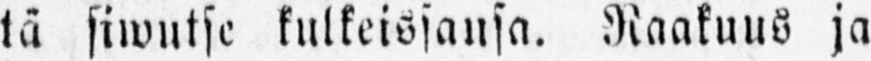tä siwutse kulkeissansa. Raakuus ja
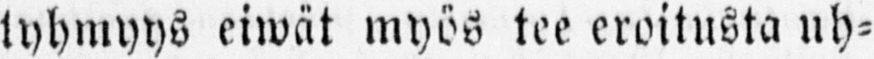tyhmyys eiwät myös tee eroitusta uh-
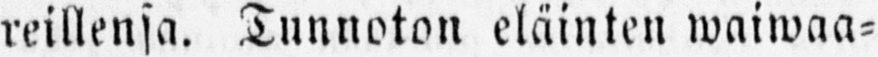reillensa. Tunnoton eläinten waiwaa-
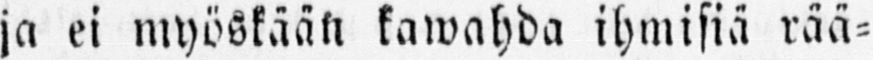ja ei myöskään kawahda ihmisiä rää-
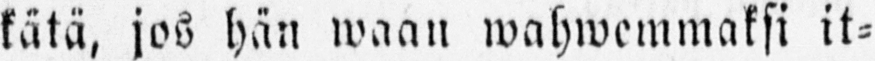kätä, jos hän waan wahwemmaksi it-
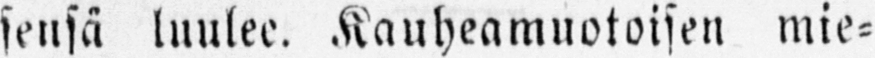sensä luulee. Kauheamuotoisen mie-
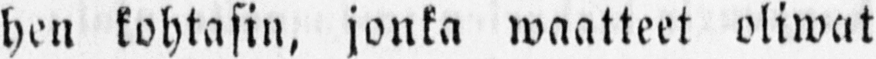hen kohtasin, jonka waatteet oliwat
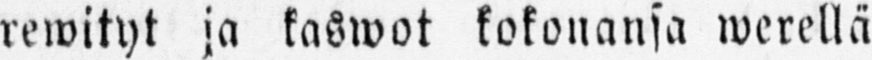rewityt ja kaswot kokonansa werellä
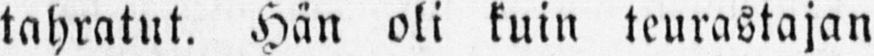tahratut. Hän oli kuin teurastajan
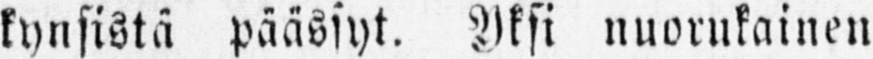kynsistä päässyt. Yksi nuorukainen
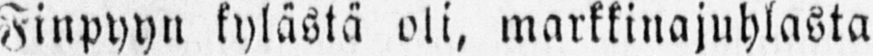Finpyyn kylästä oli, markkinajuhlasta
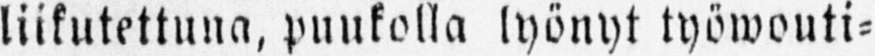liikutettuna, puukolla lyönyt työwouti-
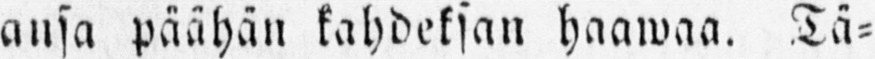ansa päähän kahdeksan haawaa. Tä-
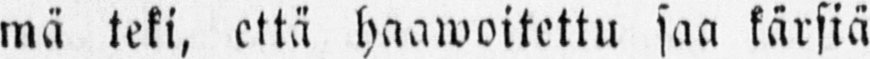mä teki, että haawoitettu saa kärsiä
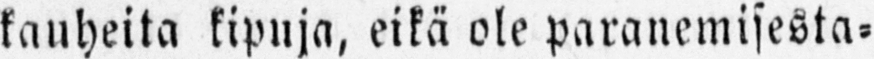kauheita kipuja, eikä ole paranemisesta-
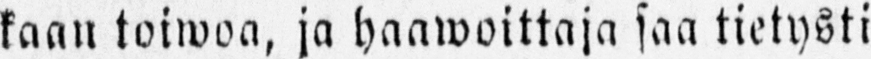kaan toiwoa, ja haawoittaja saa tietysti
